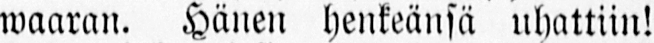waaran. Hänen henkeänsä uhattiin!
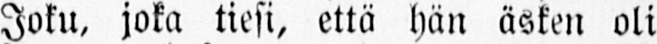Joku, joka tiesi, että hän äsken oli
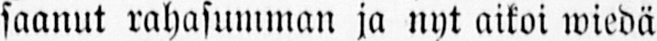saanut rahasumman ja nyt aikoi wiedä
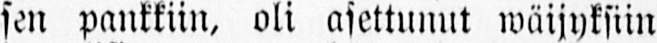sen pankkiin, oli asettunut wäijyksiin
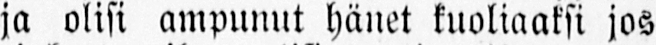ja olisi ampunut hänet kuoliaaksi jos
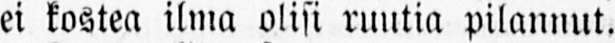ei kostea ilma olisi ruutia pilannut.
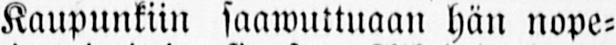Kaupunkiin saawttuaan hän nope-
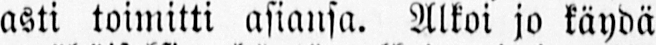asti toimitti asiansa. Alkoi jo käydä
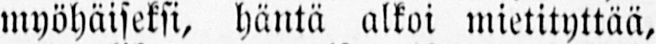myöhäiseksi, häntä alkoi mietityttää,
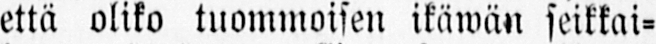että oliko tuommoisen ikäwän seikkai-
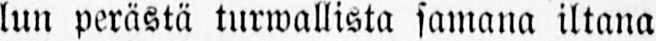lun perästä turwallista samana iltana
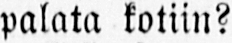palata koliin?
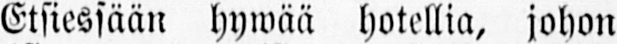Etsiessään hywää hotellia, johon
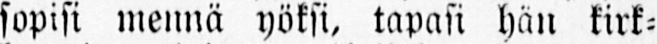sopisi mennä yöksi, tapasi hän kirk-
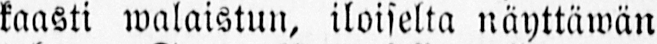kaasti walaistun, iloiselta näyttäwän
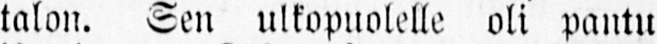talon. Sen ulkopuolelle oli pantu
